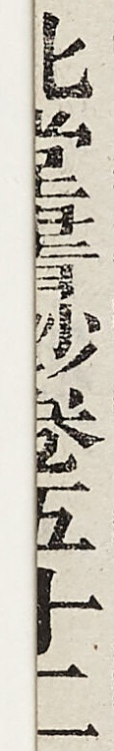北堂書鈔卷第五十二
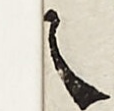八
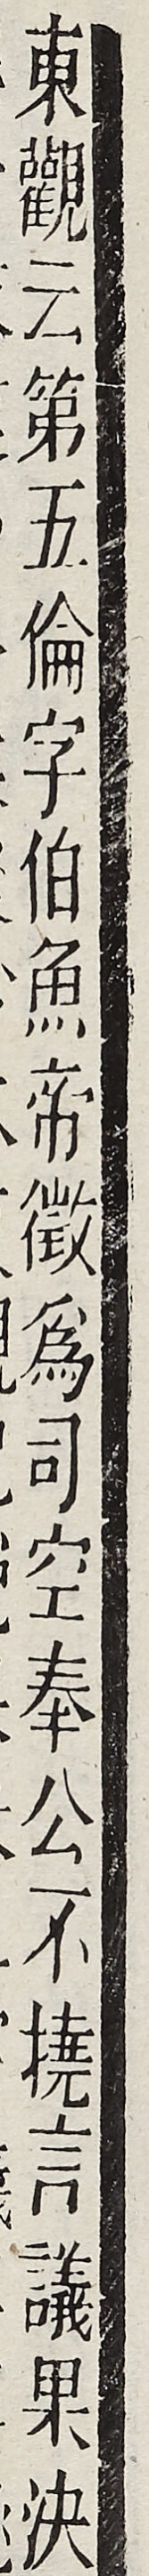東觀雲第五倫字伯魚帝徵為司空奉公子撓言議果決
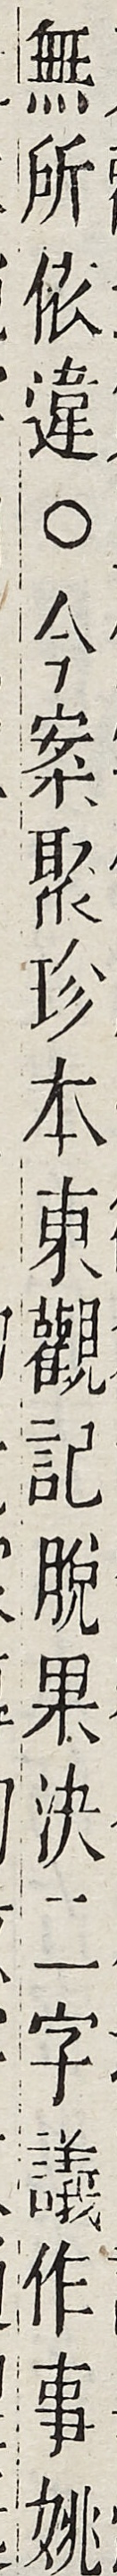無所依違○今案聚珍本東觀記脫果決二字議作事姚
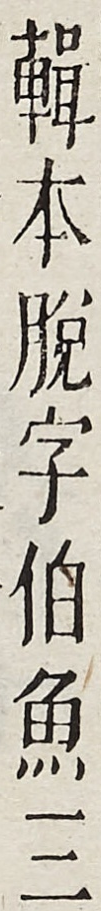輯本脫字伯魚三
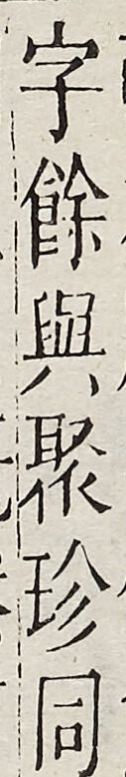字餘與聚珍同
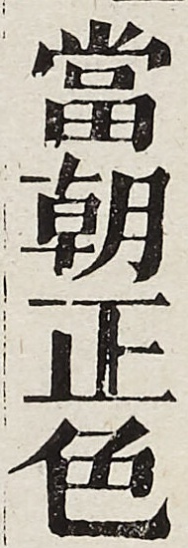當朝正色
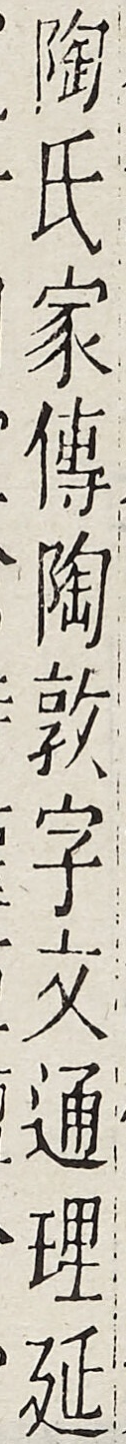陶氏家傳陶敦字文通理延
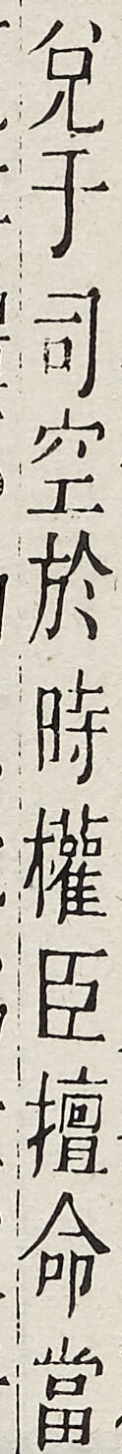兌子司空於時權臣擅命當
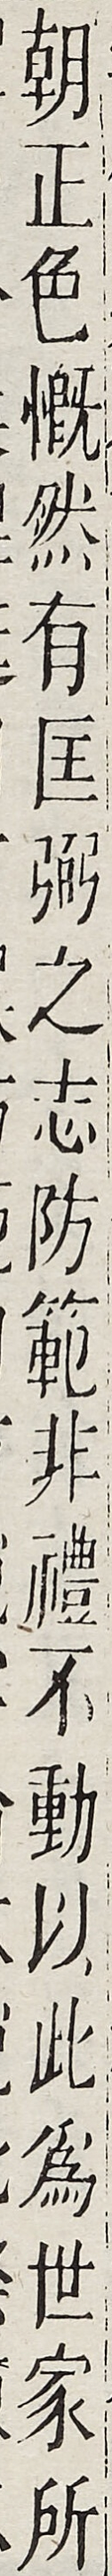朝正色慨然有匡粥之志防範非禮不動以此為世家所
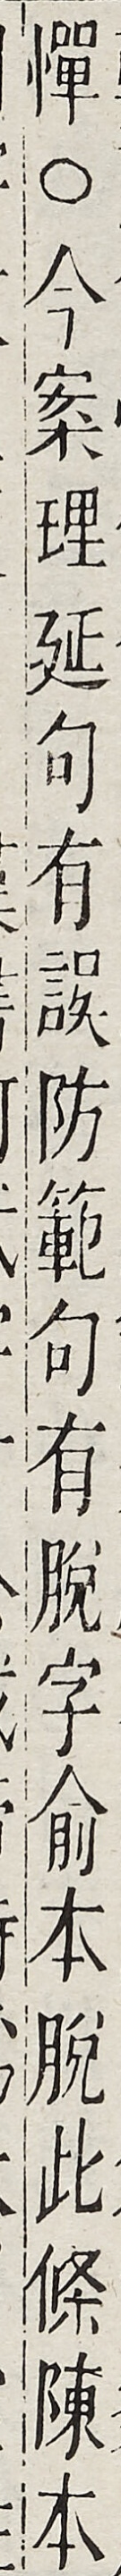憚○今案理廷句有誤防範句有脫字俞本脫此條陳本
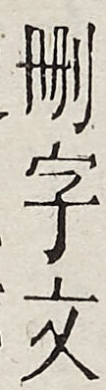刪字文
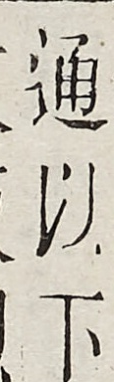通以下
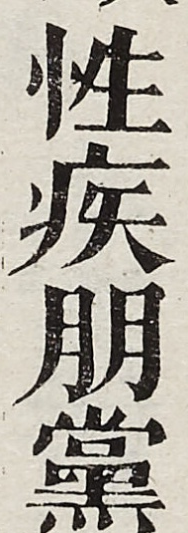性疾朋黨
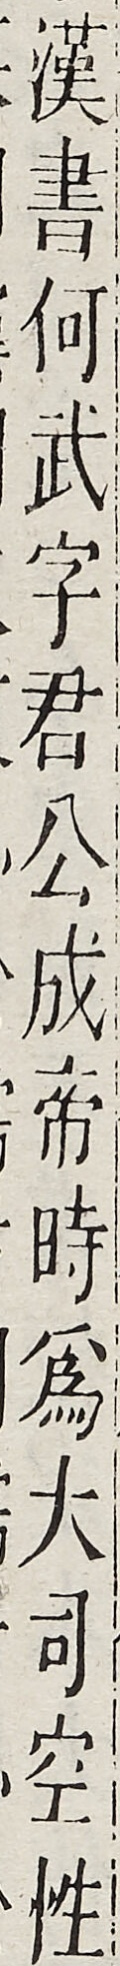漢書何武字君公成帝時為大司空性
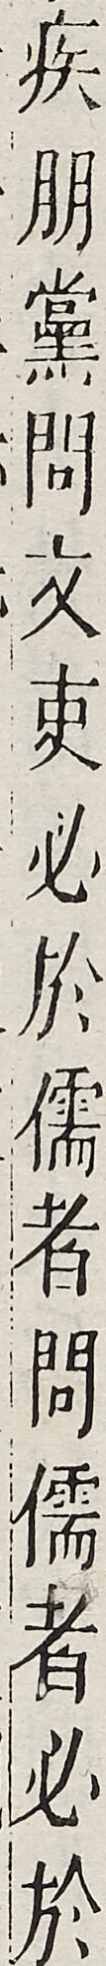疾朋黨問文吏必於儒者問儒者必於
